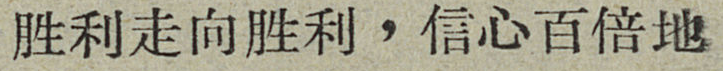胜利走向胜利，信心百倍地
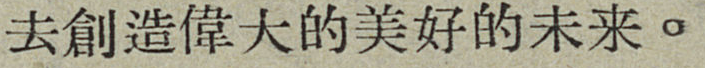去創造偉大的美好的未来。
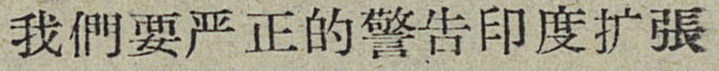我們要严正的警告印度扩張
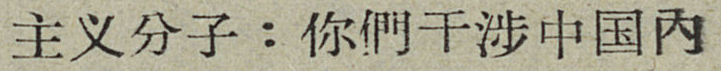主义分子：你們干涉中国内
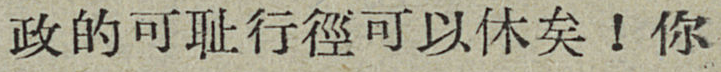政的可耻行徑可以休矣！你
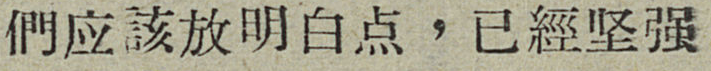們应該放明白点，已經坚强
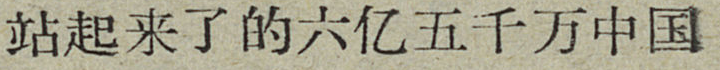站起来了的六亿五千万中国
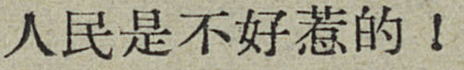人民是不好惹的！
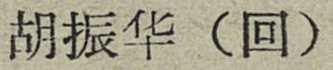胡振华（回）
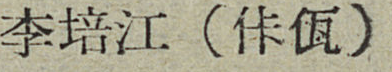李培江（佧佤）
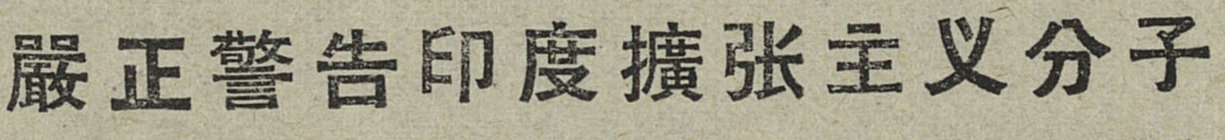嚴正警告印度擴张主义分子
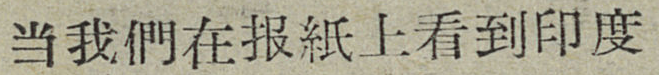当我們在报紙上看到印度
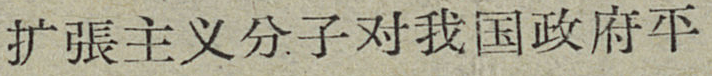扩張主义分子对我国政府平
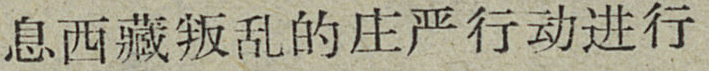息西藏叛乱的庄严行动进行
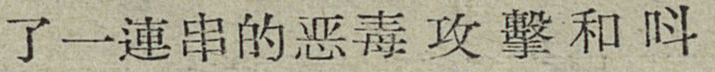了一連串的恶毒攻擊和呌
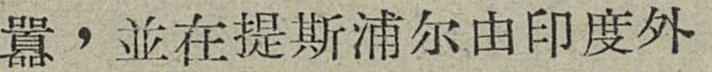囂，並在提斯浦尔由印度外
